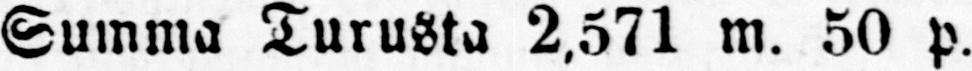Summa Turusta 2,571 m. 50 p.
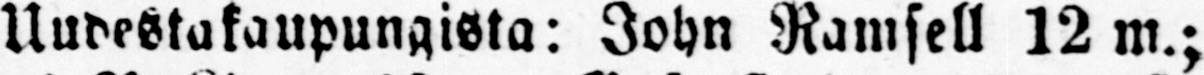Uudestakaupungista: John Ramsell 12 m.;
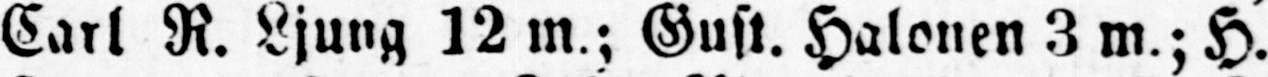Carl R. Ljung 12 m.; Gust. Halonen 3 m.; H.
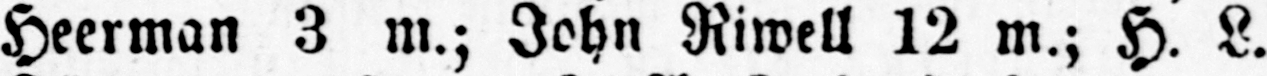Heerman 3 m.; John Riwell 12 m.; H. L.
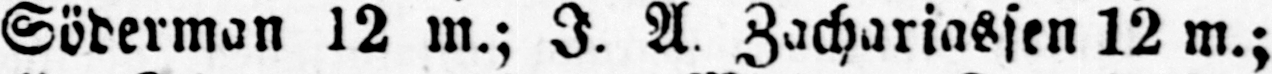Söderman 12 m.; I. A Zachariassen 12 m.;
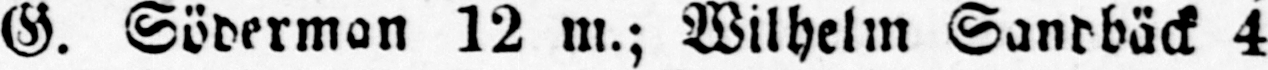G. Söderman 12 m.; Wilhelm Sandbäck 4
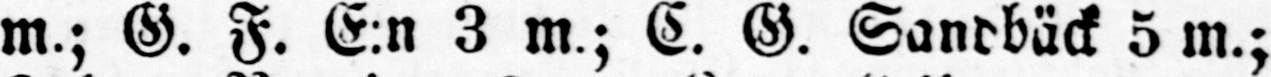m.; G. F. E:n 3 m.; E. G. Sandbäck 5 m.;
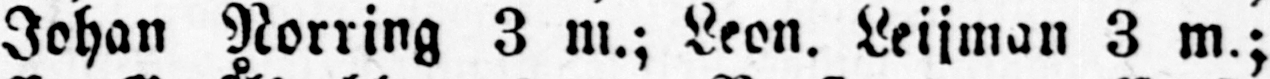Johan Norring 3 m.; Leon. Leijman 3 m.;
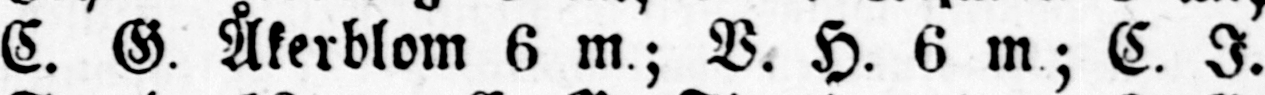C. G Åkerblom 6 m; V. H. 6 m; C. I.
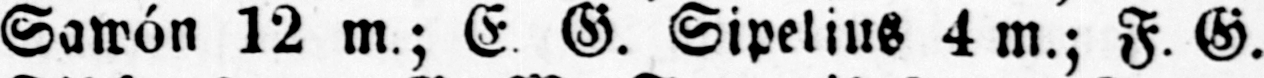Sawón 12 m.; E G. Sipelius 4 m.; F. G.
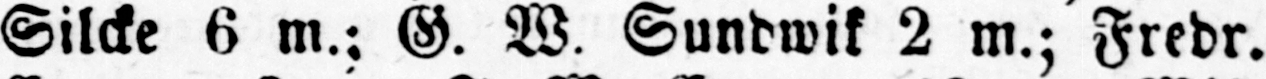Silcke 6 m.; G. W. Sundwik 2 m.; Fredr.
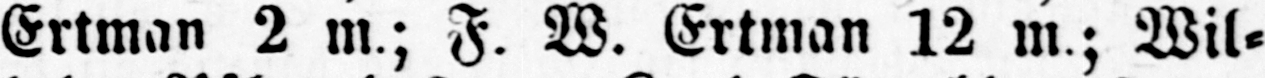Ertman 2 m.; F. W. Ertman 12 m.; Wil-
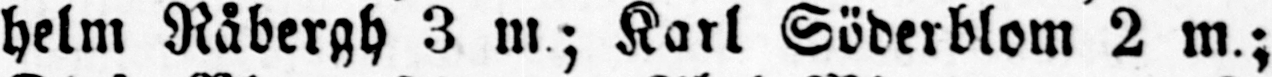helm Råbergh 3 m; Karl Söderblom 2 m.;
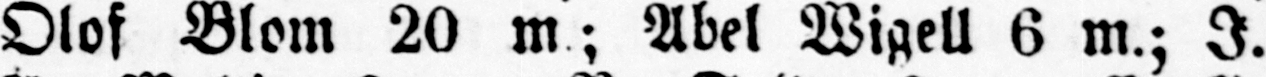Olof Blom 20 m; Abel Wigell 6 m.; I.
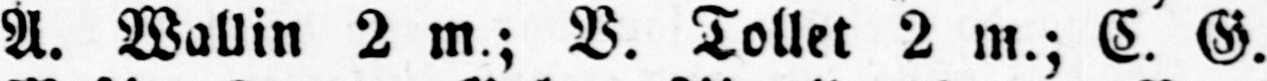A. Wallin 2 m.; V. Tollet 2 m.; C. G.
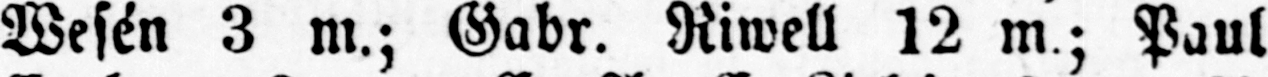Wesén 3 m.; Gabr. Riwell 12 m; Paul
